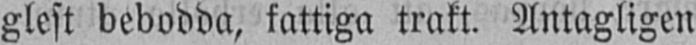glest bebodda, fattiga trakt. Antagligen
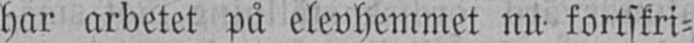har arbetet på elevhemmet nu fortskri-
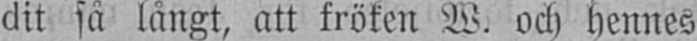dit så långt, att fröken W. och hennes
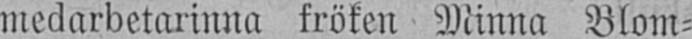medarbetarinna fröken Minna Blom-
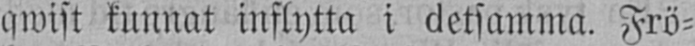qwist kunnat inflytta i detsamma. Frö-
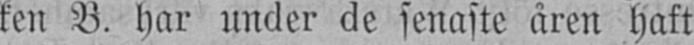ken B. har under de senaste åren haft
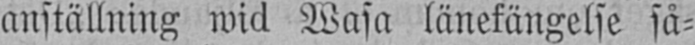anställning wid Wasa länefängelse så-
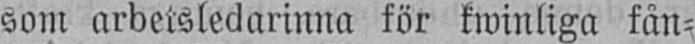som arbetsledarinna för kwinliga fån-
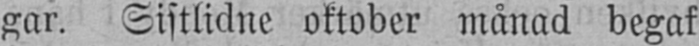gar. Sistlidne oktoder månad begaf
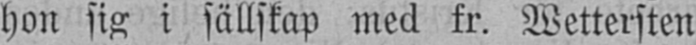hon sig i sällskap med fr. Wettersten
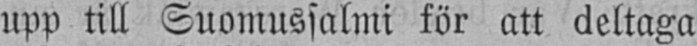upp till Suomussalmi för att deltaga
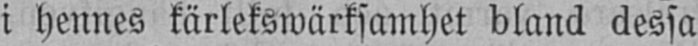i hennes kärlekswärksamhet bland dessa
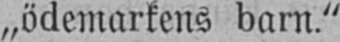„ödemarkens barn."
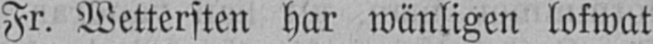Fr. Wettersten har wänligen lofwat
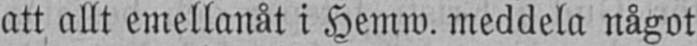att allt emellanåt i Hemw. meddela något
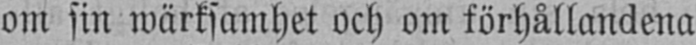om sin wärksamhet och om förhållandena
